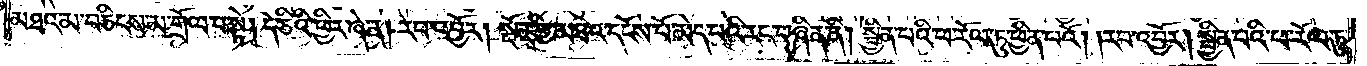མཐའ་མ་བཅིངས་མ་གྲོལ་བ་སྟེ། དེ་ཅིའི་ཕྱིར་ཞེ་ན། རབ་འབྱོར། སྔོན་གྱི་མཐའ་དངོས་པོ་མེད་པའི་རང་བཞིན་ནི། སྦྱིན་པའི་ཕ་རོལ་ཏུ་ཕྱིན་པའོ། །རབ་འབྱོར། སྦྱིན་པའི་ཕ་རོལ་ཏུ་
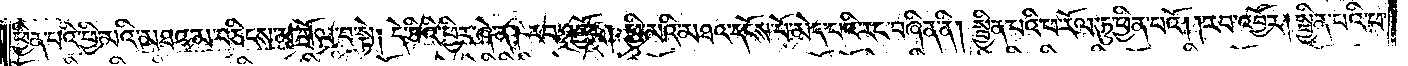ཕྱིན་པའི་ཕྱི་མའི་མཐའ་མ་བཅིངས་མ་གྲོལ་བ་སྟེ། དེ་ཅིའི་ཕྱིར་ཞེ་ན། རབ་འབྱོར། ཕྱི་མའི་མཐའ་དངོས་པོ་མེད་པའི་རང་བཞིན་ནི། སྦྱིན་པའི་ཕ་རོལ་ཏུ་ཕྱིན་པའོ། །རབ་འབྱོར། སྦྱིན་པའི་ཕ་
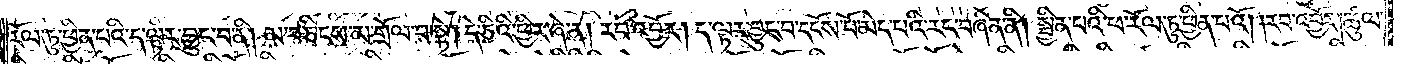རོལ་ཏུ་ཕྱིན་པའི་ད་ལྟར་བྱུང་བ་ནི། མ་བཅིངས་མ་གྲོལ་བ་སྟེ། དེ་ཅིའི་ཕྱིར་ཞེ་ན། རབ་འབྱོར། ད་ལྟར་བྱུང་བ་དངོས་པོ་མེད་པའི་རང་བཞིན་ནི། སྦྱིན་པའི་ཕ་རོལ་ཏུ་ཕྱིན་པའོ། །རབ་འབྱོར། ཚུལ་
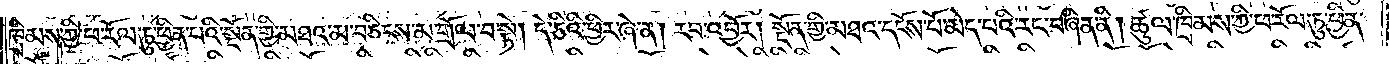ཁྲིམས་ཀྱི་ཕ་རོལ་ཏུ་ཕྱིན་པའི་སྔོན་གྱི་མཐའ་མ་བཅིངས་མ་གྲོལ་བ་སྟེ། དེ་ཅིའི་ཕྱིར་ཞེ་ན། རབ་འབྱོར། སྔོན་གྱི་མཐའ་དངོས་པོ་མེད་པའི་རང་བཞིན་ནི། ཚུལ་ཁྲིམས་ཀྱི་ཕ་རོལ་ཏུ་ཕྱིན་
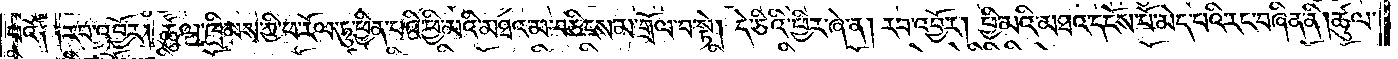པའོ༑ ༑རབ་འབྱོར། ཚུལ་ཁྲིམས་ཀྱི་ཕ་རོལ་ཏུ་ཕྱིན་པའི་ཕྱི་མའི་མཐའ་མ་བཅིངས་མ་གྲོལ་བ་སྟེ། དེ་ཅིའི་ཕྱིར་ཞེ་ན། རབ་འབྱོར། ཕྱི་མའི་མཐའ་དངོས་པོ་མེད་པའི་རང་བཞིན་ནི། ཚུལ་
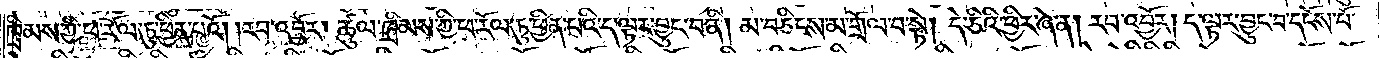ཁྲིམས་ཀྱི་ཕ་རོལ་ཏུ་ཕྱིན་པའོ། །རབ་འབྱོར། ཚུལ་ཁྲིམས་ཀྱི་ཕ་རོལ་ཏུ་ཕྱིན་པའི་ད་ལྟར་བྱུང་བ་ནི། མ་བཅིངས་མ་གྲོལ་བ་སྟེ། དེ་ཅིའི་ཕྱིར་ཞེ་ན། རབ་འབྱོར། ད་ལྟར་བྱུང་བ་དངོས་པོ་
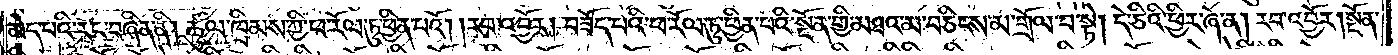མེད་པའི་རང་བཞིན་ནི། ཚུལ་ཁྲིམས་ཀྱི་ཕ་རོལ་ཏུ་ཕྱིན་པའོ། །རབ་འབྱོར། བཟོད་པའི་ཕ་རོལ་ཏུ་ཕྱིན་པའི་སྔོན་གྱི་མཐའ་མ་བཅིངས་མ་གྲོལ་བ་སྟེ། དེ་ཅིའི་ཕྱིར་ཞེ་ན། རབ་འབྱོར། སྔོན་
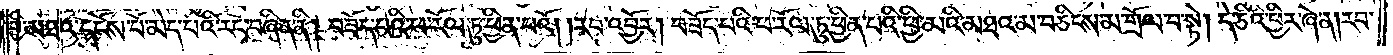གྱི་མཐའ་དངོས་པོ་མེད་པའི་རང་བཞིན་ནི། བཟོད་པའི་ཕ་རོལ་ཏུ་ཕྱིན་པའོ། །རབ་འབྱོར། བཟོད་པའི་ཕ་རོལ་ཏུ་ཕྱིན་པའི་ཕྱི་མའི་མཐའ་མ་བཅིངས་མ་གྲོལ་བ་སྟེ། དེ་ཅིའི་ཕྱིར་ཞེ་ན། རབ་
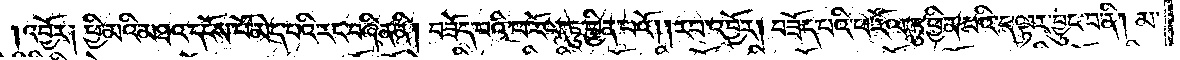འབྱོར༑ ཕྱི་མའི་མཐའ་དངོས་པོ་མེད་པའི་རང་བཞིན་ནི། བཟོད་པའི་ཕ་རོལ་ཏུ་ཕྱིན་པའོ། །རབ་འབྱོར། བཟོད་པའི་ཕ་རོལ་ཏུ་ཕྱིན་པའི་ད་ལྟར་བྱུང་བ་ནི། མ་
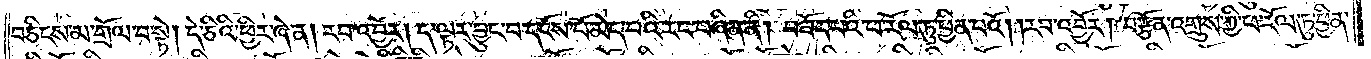བཅིངས་མ་གྲོལ་བ་སྟེ། དེ་ཅིའི་ཕྱིར་ཞེ་ན། རབ་འབྱོར། ད་ལྟར་བྱུང་བ་དངོས་པོ་མེད་པའི་རང་བཞིན་ནི། བཟོད་པའི་ཕ་རོལ་ཏུ་ཕྱིན་པའོ། །རབ་འབྱོར། བརྩོན་འགྲུས་ཀྱི་ཕ་རོལ་ཏུ་ཕྱིན་
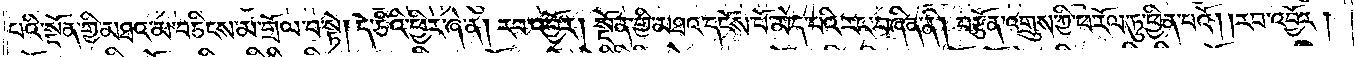པའི་སྔོན་གྱི་མཐའ་མ་བཅིངས་མ་གྲོལ་བ་སྟེ། དེ་ཅིའི་ཕྱིར་ཞེ་ན། རབ་འབྱོར། སྔོན་གྱི་མཐའ་དངོས་པོ་མེད་པའི་རང་བཞིན་ནི། བརྩོན་འགྲུས་ཀྱི་ཕ་རོལ་ཏུ་ཕྱིན་པའོ། །རབ་འབྱོར།
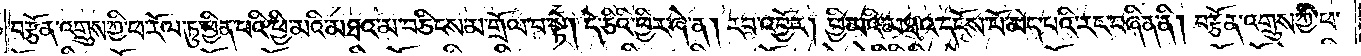བརྩོན་འགྲུས་ཀྱི་ཕ་རོལ་ཏུ་ཕྱིན་པའི་ཕྱི་མའི་མཐའ་མ་བཅིངས་མ་གྲོལ་བ་སྟེ། དེ་ཅིའི་ཕྱིར་ཞེ་ན། རབ་འབྱོར། ཕྱི་མའི་མཐའ་དངོས་པོ་མེད་པའི་རང་བཞིན་ནི། བརྩོན་འགྲུས་ཀྱི་ཕ་
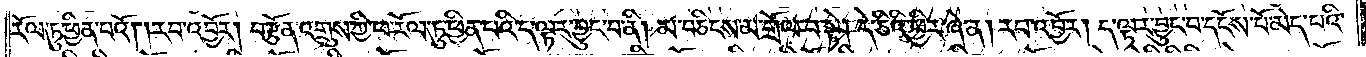རོལ་ཏུ་ཕྱིན་པའོ། །རབ་འབྱོར། བརྩོན་འགྲུས་ཀྱི་ཕ་རོལ་ཏུ་ཕྱིན་པའི་ད་ལྟར་བྱུང་བ་ནི། མ་བཅིངས་མ་གྲོལ་བ་སྟེ། དེ་ཅིའི་ཕྱིར་ཞེ་ན། རབ་འབྱོར། ད་ལྟར་བྱུང་བ་དངོས་པོ་མེད་པའི་
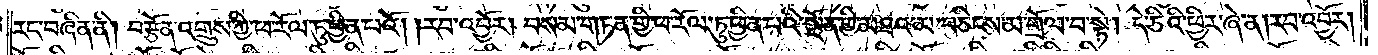རང་བཞིན་ནི། བརྩོན་འགྲུས་ཀྱི་ཕ་རོལ་ཏུ་ཕྱིན་པའོ། །རབ་འབྱོར། བསམ་གཏན་གྱི་ཕ་རོལ་ཏུ་ཕྱིན་པའི་སྔོན་གྱི་མཐའ་མ་བཅིངས་མ་གྲོལ་བ་སྟེ། དེ་ཅིའི་ཕྱིར་ཞེ་ན། རབ་འབྱོར།
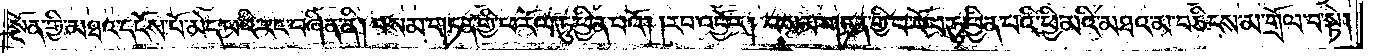སྔོན་གྱི་མཐའ་དངོས་པོ་མེད་པའི་རང་བཞིན་ནི། བསམ་གཏན་གྱི་ཕ་རོལ་ཏུ་ཕྱིན་པའོ། །རབ་འབྱོར། བསམ་གཏན་གྱི་ཕ་རོལ་ཏུ་ཕྱིན་པའི་ཕྱི་མའི་མཐའ་མ་བཅིངས་མ་གྲོལ་བ་སྟེ།
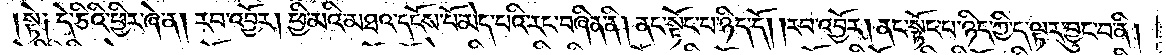སྟེ༑ དེ་ཅིའི་ཕྱིར་ཞེ་ན། རབ་འབྱོར། ཕྱི་མའི་མཐའ་དངོས་པོ་མེད་པའི་རང་བཞིན་ནི། ནང་སྟོང་པ་ཉིད་དོ། །རབ་འབྱོར། ནང་སྟོང་པ་ཉིད་ཀྱི་ད་ལྟར་བྱུང་བ་ནི།
